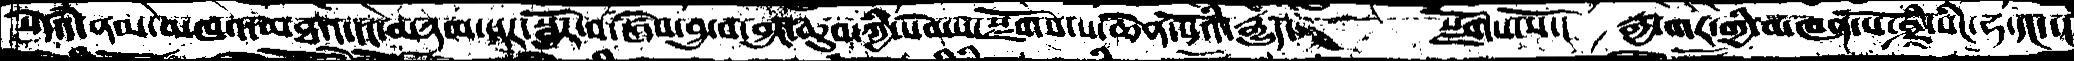སེདཾའ་ནམ་མཁའ་མཐའ་དང་མཉམ་པར་སྦྱོར་བ་ཞེས་བྱ་བ་བྱང་ཆུབ་ཀྱི་སེམས་སྫོགས་པ་ཆེན་པོའི་རྒྱུད་   སྫོགས་སོ་།  རྒྱ་གར་གྱི་མཁན་པོ་ཤྲི་སིང་ཧ་དང་་།
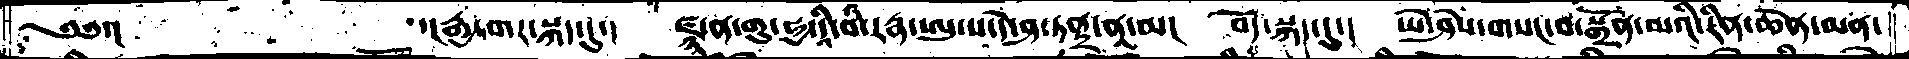༄༅་།       ་།རྒྱ་གར་སྐད་དུ།  ཛྙ་ན་གུ་ཧྱ་དཱི་བི་རཏྣ་ཨུ་པ་དེ་ཤ་ཏནྟྲ་ནཱ་མ།   བོད་སྐད་དུ་།  ཡེ་ཤེས་གསང་བ་སྒྲོན་མའི་རིན་ཆེན་མན་
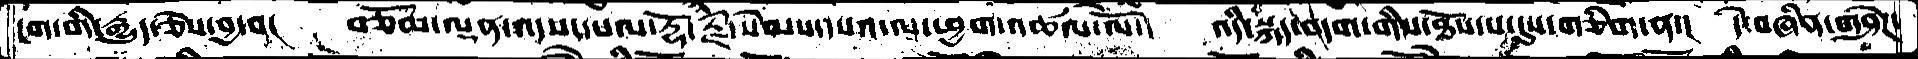ངག་གི་རྒྱུད་ཅེས་བྱ་བ།   བཅོམ་ལྡན་འདས་དཔལ་རྡོ་རྗེ་སེམས་དཔའ་ལ་ཕྱག་འཚལ་ལོ་།  འདི་སྐད་བདག་གིས་ཐོས་པ་དུས་གཅིག་ན་།  དེ་བཞིན་གཤེཌ་
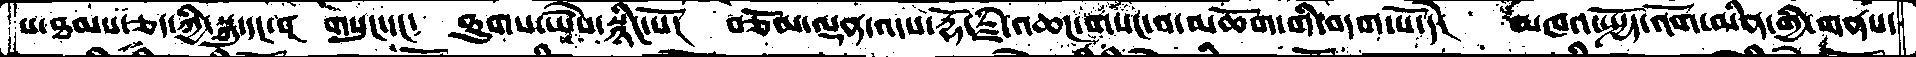པ་ཐམས་ཅད་ཀྱི་སྐུ་དང་བ  གསུང་དང༴ ཐུགས་ཡཻས་སྙིང་པོ། བཅོམ་ལྡན་འདས་རྡོ་རྗེ་འཆང་གསང་བ་མཆོག་གི་བདག་པོ་དེ། མཁའ་སྤྱོད་འོག་མིན་གྱི་གནས་
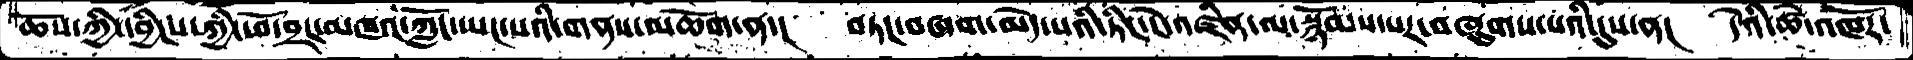ཆོས་ཀྱི་དབྱིངས་ཀྱི་ཕོ་བྲང་མཁའ་ཀློང་ཡང་པའི་གནས་མཆོག་ན་།   བཏང་བཞག་མེད་པའི་ཏིང་ངེ་འཛིན་ལ་སྙོམས་པར་བཞུགས་པའི་དུས་ན་།  དེའི་ཚེ་འཁོར་
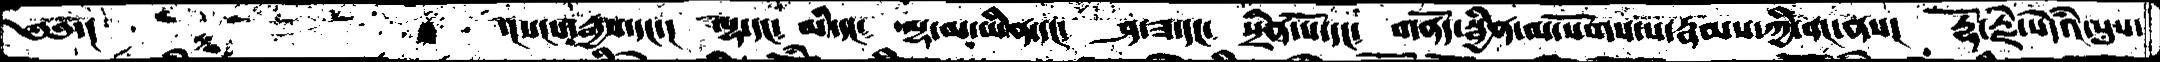༄༅་།          ་།སངས་རྒྱས་དང་།   ལྷ་དང༴  མི་དང༴  ལྷ་མ་ཡིན་དང༴  ཤ་ཟ་དང༴  སྲིན་པོ་དང༴ གནདོ་སྦྱིན་ལ་སོགས་པ་རྣམས་ཀྱི་ནང་ནས།  རྡོ་རྗེ་སེདཾའ་པུས་
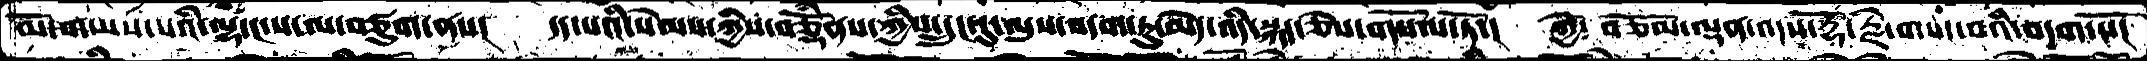མོ་གཡས་པའི་ལྷ་ང་ས་ལ་བཙུག་ནས་།  དད་པའི་སེམས་ཀྱིས་བཅྡོཾནས་ཀྱིས་དྲུང་དུ་ལུས་བདག་ཏུ་མེད་འདི་སྐད་ཅེས་གསོལ་ཏོ་།  ཀྱེ༴ བཅོམ་ལྡན་འདས་རྡོ་རྗེ་གསང་བའི་བདག་པོ།
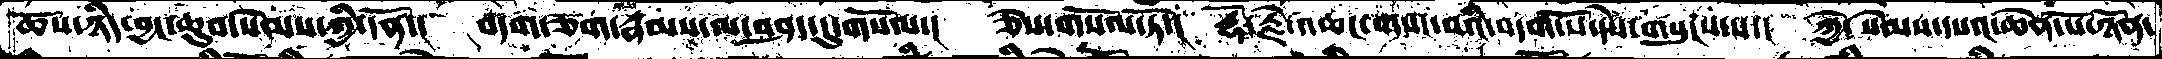ཆོས་ཉིད་བྱང་ཆུབ་སེམས་ཀྱི་དོན་།  བདག་ཅག་རྣམས་ལ་བཤད་དུ་གསོལ་།  ཅེས་གསོལ་ཏོ་།  རྡོ་རྗེ་འཆང་གསང་བའི་བདག་པོ་དེས་གསུངས་པ་།  ཀྱེ༴ སེམས་དཔའ་ཆེན་པོ་ཉོན་
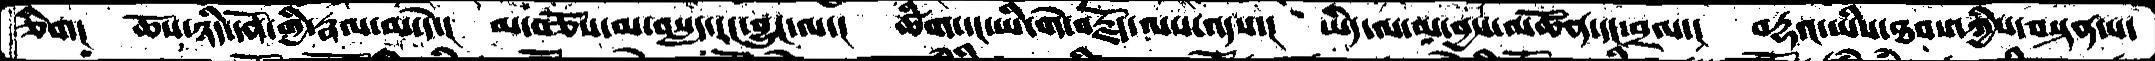ཅིག།  ཆོས་ཉིདདོན་གྱི་རྣལ་མ་དེ་།  མ་བཅོས་མ་བསླད་རང་བྱུང་ལ་།  ཚིག་དང་ཡི་གེ་བརྗོད་ལས་འདས་།  ཡིད་ལ་མ་བྱས་མཚོན་དང་བྲལ་།  བརྡའ་ཡིས་ཐབས་ཀྱིས་བསྟན་པ་
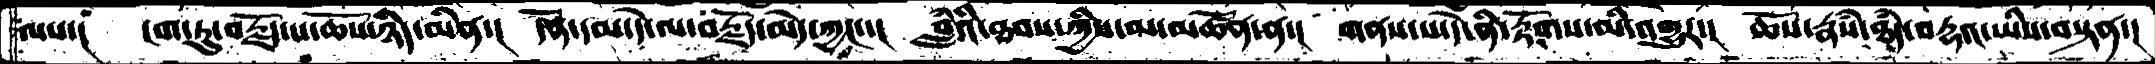ལས་།  ངག་ཏུ་བརྗོད་པ་ཆོས་ཉིད་མིན་།  དོན་དམ་དེ་ལ་བརྗོད་མེད་ཀྱང་་།  བླཾའི་ཐབས་ཀྱིས་མ་མཚོན་ན་།  གནས་པ་དེ་ནི་རྟོགས་མི་འགྱུར་།  ཆོས་རྣཾས་ཐཾད་བརྡའ་ཡིས་བསྟན་།
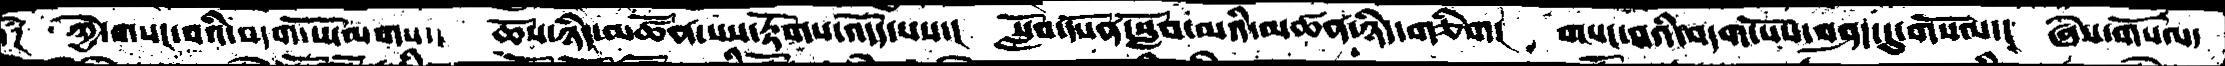་༑  ཀྱེ་གསང་བའི་བདག་པོ་ལགས་།  ཆོས་ཉིད་མཚོན་པས་རྟོགས་འདོད་པས་།  སློབ་དཔོན་སློབ་མའི་མཚན་ཉིད་གཅིག།  གསང་བའི་བདག་པོས་བཤད་དུ་གསོལ་།  ཞེས་གསོལ་
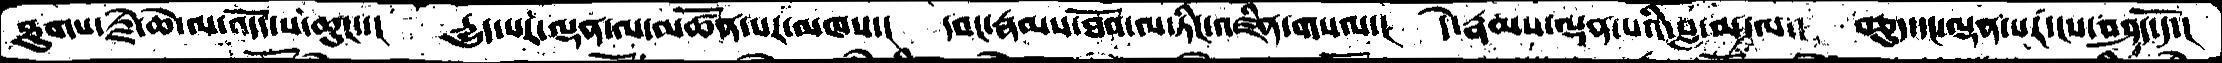ཐུགས་རྗེ་ཆེ་ལ་འདོད་པ་ཆུང་་།  དྱུད་པར་ལྡན་ལ་མཚོན་པར་མཁས་།  དབང་རྣམས་ཐོབ་ལ་ཏིང་འཛིན་གསལ་།  དེ་རྣམས་ལྡན་པའི་བླ་མ་ལ་།  བཅུད་དང་ལྡན་པར་ངས་བཤད་དོ་།
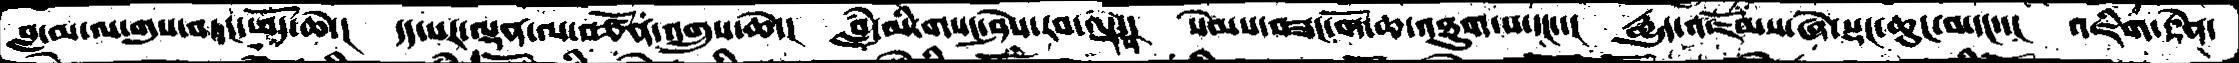བླ་མ་ལ་གུས་བཏང་ཕོད་ཆེ་། དད་པར་ལྡན་ལ་བརྩོན་འགྲུས་ཆེ་། བླཾ་མི་གསང་ཤེས་རབ་ལྡན་། སེམས་བཟང་གོ་ཆ་འཐུག་པ་དང་་། རྒྱུད་འཇོམས་ཞེ་སྡང་ཆུང་བ་དང་་། འཇིག་རྟེན་
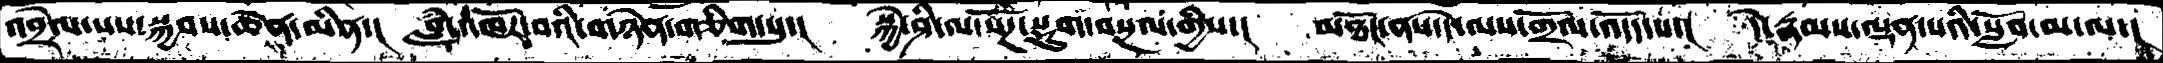འབྲེལ་པས་སྐྱབས་ཆེན་མིན་།  བླཾ་འཁོར་བའི་གཉེན་གཅིག་པུ་།  སྐྱེ་ཤི་ལ་སོཌ་སྡུག་བསྔལ་གྱིས་།  མཐོང་ནས་དེ་ལས་གྲོལ་འདོད་པ་།  དེ་རྣམས་ལྡན་པའི་སློབ་མ་ལ་།
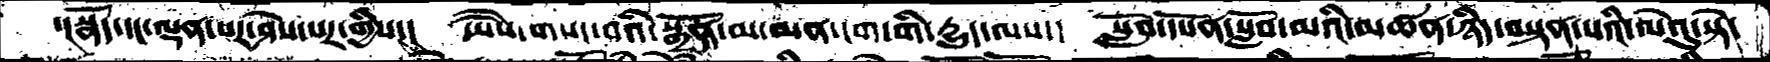་།སྣོད་དང་ལྡན་པར་ཤེས་པར་གྱིས་།  ཡཻས་གསང་བའི་སྒྲོན་མ་མན་ངག་གི་དྱུད་ལས་།  སློབ་དཔོན་སློབ་མའི་མཚན་ཉིད་བསྟན་པའི་ལེའུ་སྟེ་
